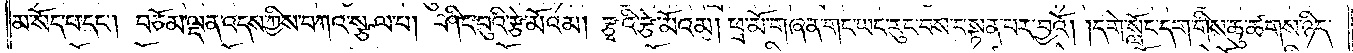མ་སོད་པ་དང༌། བཅོམ་ལྡན་འདས་ཀྱིས་བཀའ་སྩལ་པ། ཤིང་བུའི་རྩེ་མོའམ། རྩྭའི་རྩེ་མོའམ། ཕྲ་མོ་གཞན་གང་ཡང་རུང་བས་བསྟན་པར་བྱའོ། །དགེ་སློང་དག་གིས་ཆུ་ཚགས་ཉིད་
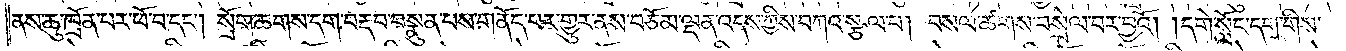ནས་ཆུ་ཁྲོན་པར་ཕོ་བ་དང༌། སྲོག་ཆགས་དག་བརྡབ་བསྣུན་པས་གནོད་པར་གྱུར་ནས་བཅོམ་ལྡན་འདས་ཀྱིས་བཀའ་སྩལ་པ། བསལ་ཚགས་བསྲེལ་བར་བྱའོ། །དགེ་སློང་དག་གིས་
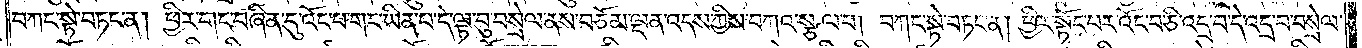བཀང་སྟེ་བཏང་ན། ཕྱིར་གང་བཞིན་དུ་འོང་པ་གང་ཡིན་པ་དེ་ལྟ་བུ་བསྲེལ་ནས་བཅོམ་ལྡན་འདས་ཀྱིས་བཀའ་སྩལ་པ། བཀང་སྟེ་བཏང་ན། ཕྱིར་སྟོང་བར་འོང་བ་ཅི་འདྲ་བ་དེ་འདྲ་བ་བསྲེལ་
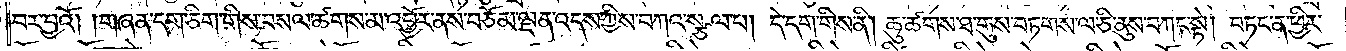བར་བྱའོ། །གཞན་དག་ཅིག་གིས་བསལ་ཚགས་མ་འབྱོར་ནས་བཅོམ་ལྡན་འདས་ཀྱིས་བཀའ་སྩལ་པ། དེ་དག་གིས་ནི། ཆུ་ཚགས་ཐ་གུས་བཏགས་ལ་ཅི་ནུས་བཀང་སྟེ། བཏང་ན་ཕྱིར་
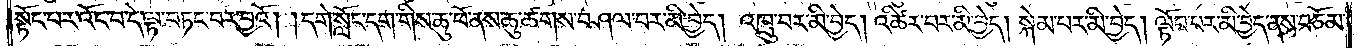སྟོང་པར་འོང་བ་དེ་ལྟ་བཏང་བར་བྱའོ། །དགེ་སློང་དག་གིས་ཆུ་ཕོ་ནས་ཆུ་ཚགས་བཤལ་བར་མི་བྱེད། འཁྲུ་བར་མི་བྱེད། འཚིར་བར་མི་བྱེད། སྐེམ་པར་མི་བྱེད། ལྟོབ་པར་མི་བྱེད་ནས་བཅོམ་
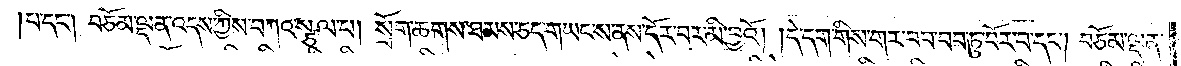པ་དང༌། བཅོམ་ལྡན་འདས་ཀྱིས་བཀའ་སྩལ་པ། སྲོག་ཆགས་ཐམས་ཅད་གཡང་ས་ནས་དོར་བར་མི་བྱའོ། །དེ་དག་གིས་གར་བབ་བབ་ཏུ་བོར་བ་དང༌། བཅོམ་ལྡན་
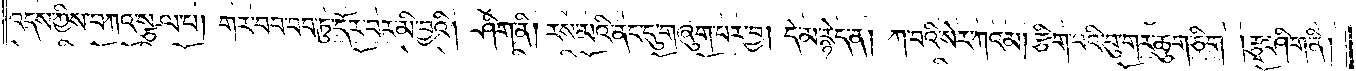འདས་ཀྱིས་བཀའ་སྩལ་པ། གར་བབ་བབ་ཏུ་དོར་བར་མི་བྱའི། ཤིག་ནི། རས་མའི་ནང་དུ་གཞུག་པར་བྱ། དེ་མ་རྙེད་ན། ཀ་བའི་སེར་ཀའམ། རྩིག་པའི་བུ་གར་ཆུག་ཅིག །རྩྭ་ཤིག་ནི།
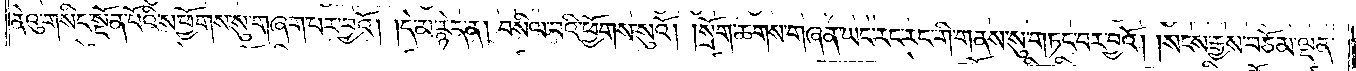ནེའུ་གསིང་སྔོན་པོའི་ས་ཕྱོགས་སུ་གཞག་པར་བྱའོ། །དེ་མ་རྙེད་ན། བསིལ་བའི་ཕྱོགས་སུའོ། །སྲོག་ཆགས་གཞན་ཡང་རང་རང་གི་གནས་སུ་གཏང་བར་བྱའོ། །སངས་རྒྱས་བཅོམ་ལྡན་
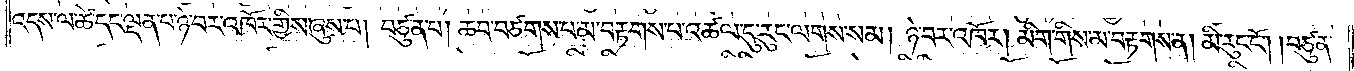འདས་ལ་ཚེ་དང་ལྡན་པ་ཉེ་བར་འཁོར་གྱིས་ཞུས་པ། བཙུན་པ། ཆབ་བཙགས་པ་མ་བརྟགས་པ་འཚལ་དུ་རུང་ལགས་སམ། ཉེ་བར་འཁོར། མིག་གིས་མ་བརྟགས་ན། མི་རུང་ངོ༌། །བཙུན་
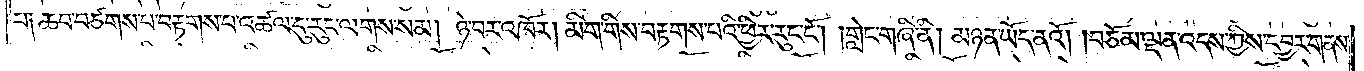པ༑ ཆབ་བཙགས་པ་བརྟགས་པ་འཚལ་དུ་རུང་ལགས་སམ། ཉེ་བར་འཁོར། མིག་གིས་བརྟགས་པའི་ཕྱིར་རུང་ངོ༌། །གླེང་གཞི་ནི། མཉན་ཡོད་ནའོ། །བཅོམ་ལྡན་འདས་ཀྱིས་དབྱར་གནས་
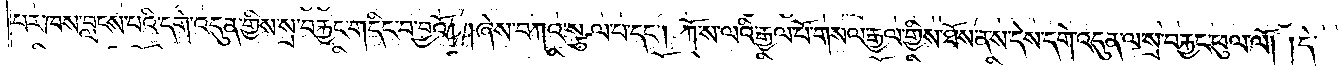པར་ཁས་བླངས་པའི་དགེ་འདུན་གྱིས་སྲ་བརྐྱང་གདིང་བ་བྱའོ། །ཞེས་བཀའ་སྩལ་པ་དང༌། ཀོ་ས་ལའི་རྒྱལ་པོ་གསལ་རྒྱལ་གྱིས་ཐོས་ནས་དེས་དགེ་འདུན་ལ་སྲ་བརྐྱང་ཕུལ་ལོ། །དེ་
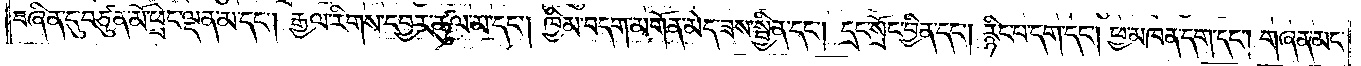བཞིན་དུ་བཙུན་མོ་ཕྲེང་ལྡན་མ་དང༌། རྒྱལ་རིགས་དབྱར་ཚུལ་མ་དང༌། ཁྱིམ་བདག་མགོན་མེད་ཟས་སྦྱིན་དང༌། དྲང་སྲོང་བྱིན་དང༌། རྙིང་པ་དག་དང༌། ཕྱ་མཁན་དག་དང༌། གཞན་མང་
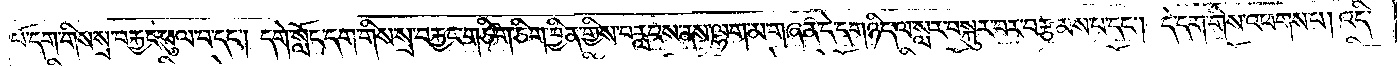པོ་དག་གིས་སྲ་བརྐྱང་ཕུལ་པ་དང༌། དགེ་སློང་དག་གིས་སྲ་བརྐྱང་གཅིག་ཅིག་བྱིན་གྱིས་བརླབས་ནས་ལྷག་མ་གཞན་དེ་དག་ཉིད་ལ་སླར་བསྐུར་བར་བརྩམས་པ་དང༌། དེ་དག་གིས་འཕགས་པ། འདི་
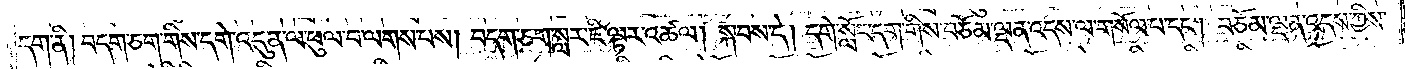དག་ནི། བདག་ཅག་གིས་དགེ་འདུན་ལ་ཕུལ་བ་ལགས་པས། བདག་ཅག་སླར་ཇི་ལྟར་འཚལ། སྐབས་དེ། དགེ་སློང་དག་གིས་བཅོམ་ལྡན་འདས་ལ་གསོལ་པ་དང༌། བཅོམ་ལྡན་འདས་ཀྱིས་
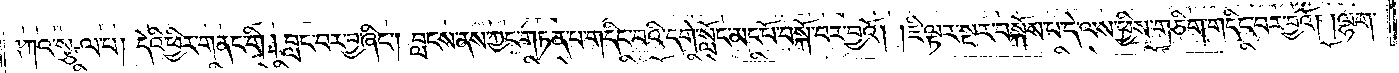བཀའ་སྩལ་པ། དེའི་ཕྱིར་གནང་གི །བླང་བར་བྱ་ཞིང༌། བླངས་ནས་ཀྱང་གཏན་པ་གདིང་པའི་དགེ་སློང་མང་པོ་བསྐོ་བར་བྱའོ། །ཇི་ལྟར་སྔར་བསྐོས་པ་དེ་ལས་ཕྱིས་གཅིག་གདིང་བར་བྱའོ། །ལྷག་
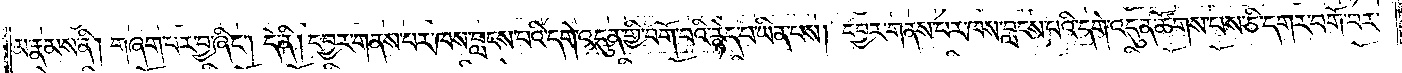མ་རྣམས་ནི། གཞག་པར་བྱ་ཞིང༌། དེ་ནི། དབྱར་གནས་པར་ཁས་བླངས་པའི་དགེ་འདུན་གྱི་བགོ་བའི་རྙེད་པ་ཡིན་པས། དབྱར་གནས་པར་ཁས་བླངས་པའི་དགེ་འདུན་ཚོགས་པས་ཅི་དགར་བགོ་བར་
